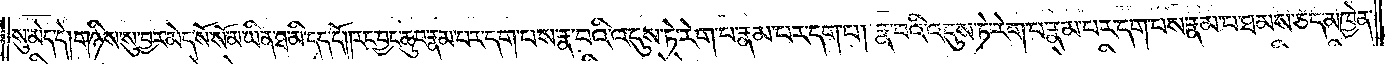སུ་མེད་དེ། གཉིས་སུ་བྱར་མེད་སོ་སོ་མ་ཡིན་ཐ་མི་དད་དོ། །རང་བྱང་ཆུབ་རྣམ་པར་དག་པས་རྣ་བའི་འདུས་ཏེ་རེག་པ་རྣམ་པར་དག་པ། རྣ་བའི་འདུས་ཏེ་རེག་པ་རྣམ་པར་དག་པས་རྣམ་པ་ཐམས་ཅད་མཁྱེན་
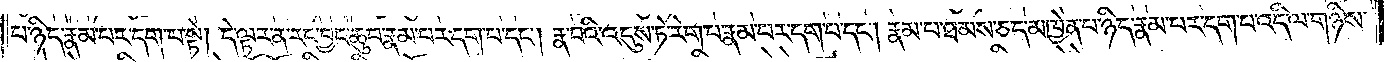པ་ཉིད་རྣམ་པར་དག་པ་སྟེ། དེ་ལྟར་ན་རང་བྱང་ཆུབ་རྣམ་པར་དག་པ་དང༌། རྣ་བའི་འདུས་ཏེ་རེག་པ་རྣམ་པར་དག་པ་དང༌། རྣམ་པ་ཐམས་ཅད་མཁྱེན་པ་ཉིད་རྣམ་པར་དག་པ་འདི་ལ་གཉིས་
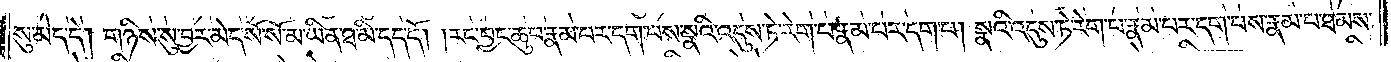སུ་མེད་དེ། གཉིས་སུ་བྱར་མེད་སོ་སོ་མ་ཡིན་ཐ་མི་དད་དོ། །རང་བྱང་ཆུབ་རྣམ་པར་དག་པས་སྣའི་འདུས་ཏེ་རེག་པ་རྣམ་པར་དག་པ། སྣའི་འདུས་ཏེ་རེག་པ་རྣམ་པར་དག་པས་རྣམ་པ་ཐམས་
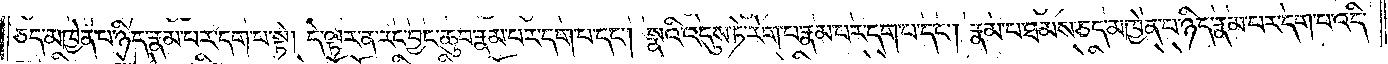ཅད་མཁྱེན་པ་ཉིད་རྣམ་པར་དག་པ་སྟེ། དེ་ལྟར་ན་རང་བྱང་ཆུབ་རྣམ་པར་དག་པ་དང༌། སྣའི་འདུས་ཏེ་རེག་པ་རྣམ་པར་དག་པ་དང༌། རྣམ་པ་ཐམས་ཅད་མཁྱེན་པ་ཉིད་རྣམ་པར་དག་པ་འདི་
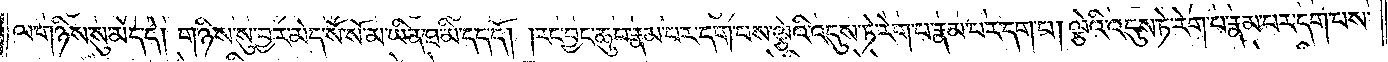ལ་གཉིས་སུ་མེད་དེ། གཉིས་སུ་བྱར་མེད་སོ་སོ་མ་ཡིན་ཐ་མི་དད་དོ། །རང་བྱང་ཆུབ་རྣམ་པར་དག་པས་ལྕེའི་འདུས་ཏེ་རེག་པ་རྣམ་པར་དག་པ། ལྕེའི་འདུས་ཏེ་རེག་པ་རྣམ་པར་དག་པས་
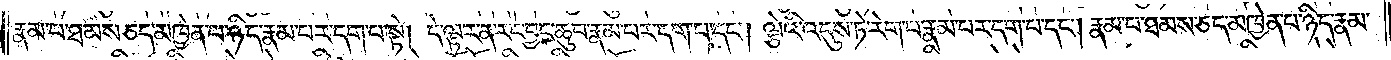རྣམ་པ་ཐམས་ཅད་མཁྱེན་པ་ཉིད་རྣམ་པར་དག་པ་སྟེ། དེ་ལྟར་ན་རང་བྱང་ཆུབ་རྣམ་པར་དག་པ་དང༌། ལྕེའི་འདུས་ཏེ་རེག་པ་རྣམ་པར་དག་པ་དང༌། རྣམ་པ་ཐམས་ཅད་མཁྱེན་པ་ཉིད་རྣམ་
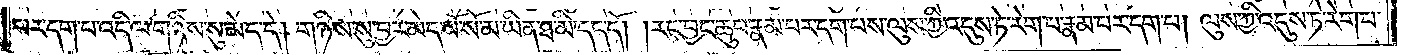པར་དག་པ་འདི་ལ་གཉིས་སུ་མེད་དེ། གཉིས་སུ་བྱར་མེད་སོ་སོ་མ་ཡིན་ཐ་མི་དད་དོ། །རང་བྱང་ཆུབ་རྣམ་པར་དག་པས་ལུས་ཀྱི་འདུས་ཏེ་རེག་པ་རྣམ་པར་དག་པ། ལུས་ཀྱི་འདུས་ཏེ་རེག་པ་
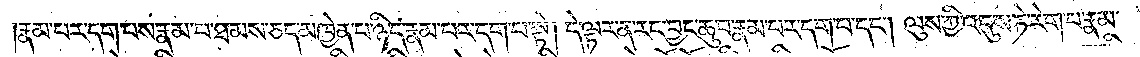རྣམ་པར་དག་པས་རྣམ་པ་ཐམས་ཅད་མཁྱེན་པ་ཉིད་རྣམ་པར་དག་པ་སྟེ། དེ་ལྟ་ན་རང་བྱང་ཆུབ་རྣམ་པར་དག་པ་དང༌། ལུས་ཀྱི་འདུས་ཏེ་རེག་པ་རྣམ་
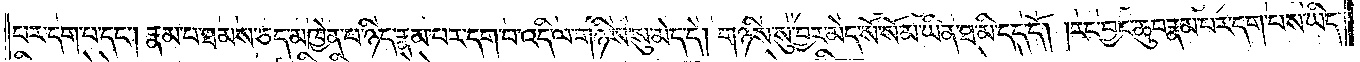པར་དག་པ་དང༌། རྣམ་པ་ཐམས་ཅད་མཁྱེན་པ་ཉིད་རྣམ་པར་དག་པ་འདི་ལ་གཉིས་སུ་མེད་དེ། གཉིས་སུ་བྱར་མེད་སོ་སོ་མ་ཡིན་ཐ་མི་དད་དོ། །རང་བྱང་ཆུབ་རྣམ་པར་དག་པས་ཡིད་
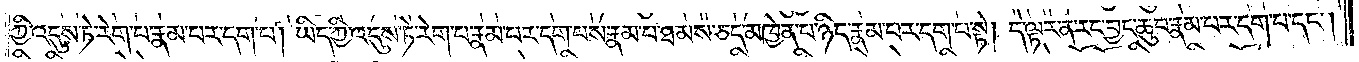ཀྱི་འདུས་ཏེ་རེག་པ་རྣམ་པར་དག་པ། ཡིད་ཀྱི་འདུས་ཏེ་རེག་པ་རྣམ་པར་དག་པས་རྣམ་པ་ཐམས་ཅད་མཁྱེན་པ་ཉིད་རྣམ་པར་དག་པ་སྟེ། དེ་ལྟར་ན་རང་བྱང་ཆུབ་རྣམ་པར་དག་པ་དང༌།
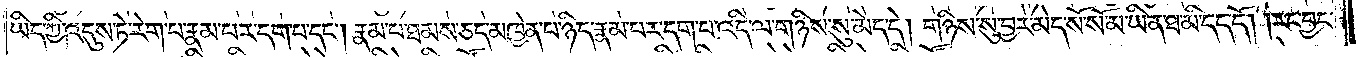ཡིད་ཀྱི་འདུས་ཏེ་རེག་པ་རྣམ་པར་དག་པ་དང༌། རྣམ་པ་ཐམས་ཅད་མཁྱེན་པ་ཉིད་རྣམ་པར་དག་པ་འདི་ལ་གཉིས་སུ་མེད་དེ། གཉིས་སུ་བྱར་མེད་སོ་སོ་མ་ཡིན་ཐ་མི་དད་དོ། །རང་བྱང་
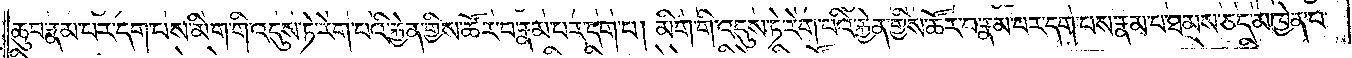ཆུབ་རྣམ་པར་དག་པས་མིག་གི་འདུས་ཏེ་རེག་པའི་རྐྱེན་གྱིས་ཚོར་བ་རྣམ་པར་དག་པ། མིག་གི་འདུས་ཏེ་རེག་པའི་རྐྱེན་གྱིས་ཚོར་བ་རྣམ་པར་དག་པས་རྣམ་པ་ཐམས་ཅད་མཁྱེན་པ་
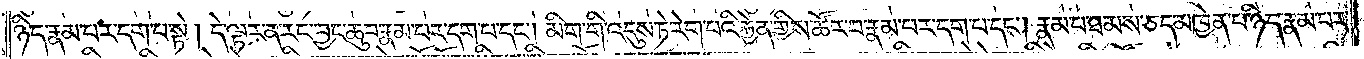ཉིད་རྣམ་པར་དག་པ་སྟེ། དེ་ལྟར་ན་རང་བྱང་ཆུབ་རྣམ་པར་དག་པ་དང༌། མིག་གི་འདུས་ཏེ་རེག་པའི་རྐྱེན་གྱིས་ཚོར་བ་རྣམ་པར་དག་པ་དང༌། རྣམ་པ་ཐམས་ཅད་མཁྱེན་པ་ཉིད་རྣམ་པར་
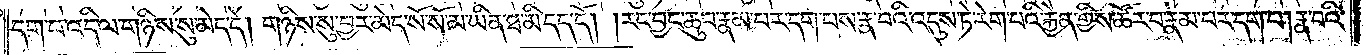དག་པ་འདི་ལ་གཉིས་སུ་མེད་དེ། གཉིས་སུ་བྱར་མེད་སོ་སོ་མ་ཡིན་ཐ་མི་དད་དོ། །རང་བྱང་ཆུབ་རྣམ་པར་དག་པས་རྣ་བའི་འདུས་ཏེ་རེག་པའི་རྐྱེན་གྱིས་ཚོར་བ་རྣམ་པར་དག་པ། རྣ་བའི་
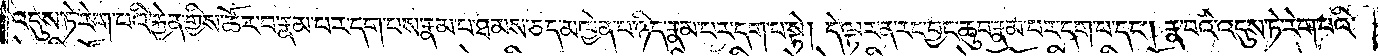འདུས་ཏེ་རེག་པའི་རྐྱེན་གྱིས་ཚོར་བ་རྣམ་པར་དག་པས་རྣམ་པ་ཐམས་ཅད་མཁྱེན་པ་ཉིད་རྣམ་པར་དག་པ་སྟེ། དེ་ལྟར་ན་རང་བྱང་ཆུབ་རྣམ་པར་དག་པ་དང༌། རྣ་བའི་འདུས་ཏེ་རེག་པའི་
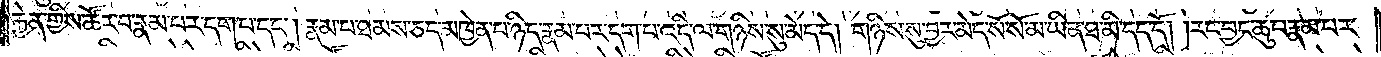རྐྱེན་གྱིས་ཚོར་བ་རྣམ་པར་དག་པ་དང༌། རྣམ་པ་ཐམས་ཅད་མཁྱེན་པ་ཉིད་རྣམ་པར་དག་པ་འདི་ལ་གཉིས་སུ་མེད་དེ། གཉིས་སུ་བྱར་མེད་སོ་སོ་མ་ཡིན་ཐ་མི་དད་དོ། །རང་བྱང་ཆུབ་རྣམ་པར་
